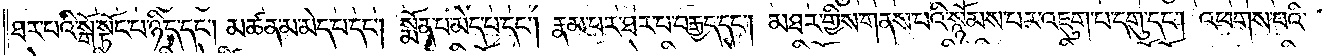ཐར་པའི་སྒོ་སྟོང་པ་ཉིད་དང༌། མཚན་མ་མེད་པ་དང༌། སྨོན་པ་མེད་པ་དང༌། རྣམ་པར་ཐར་པ་བརྒྱད་དང༌། མཐར་གྱིས་གནས་པའི་སྙོམས་པར་འཇུག་པ་དགུ་དང༌། འཕགས་པའི་
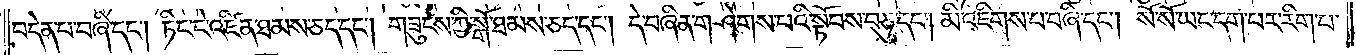བདེན་པ་བཞི་དང༌། ཏིང་ངེ་འཛིན་ཐམས་ཅད་དང༌། གཟུངས་ཀྱི་སྒོ་ཐམས་ཅད་དང༌། དེ་བཞིན་གཤེགས་པའི་སྟོབས་བཅུ་དང༌། མི་འཇིགས་པ་བཞི་དང༌། སོ་སོ་ཡང་དག་པར་རིག་པ་
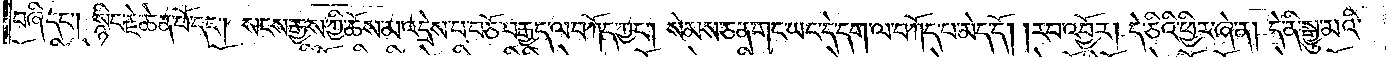བཞི་དང༌། སྙིང་རྗེ་ཆེན་པོ་དང༌། སངས་རྒྱས་ཀྱི་ཆོས་མ་འདྲེས་པ་བཅོ་བརྒྱད་ལ་བཀོད་ཀྱང༌། སེམས་ཅན་གང་ཡང་དེ་དག་ལ་བཀོད་པ་མེད་དོ། །རབ་འབྱོར། དེ་ཅིའི་ཕྱིར་ཞེ་ན། དེ་ནི་སྒྱུ་མའི་
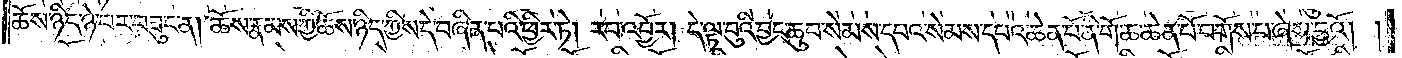ཆོས་ཉིད་ཉེ་བར་བཟུང་ན། ཆོས་རྣམས་ཀྱི་ཆོས་ཉིད་ཀྱིས་དེ་བཞིན་པའི་ཕྱིར་ཏེ། རབ་འབྱོར། དེ་ལྟ་བུའི་བྱང་ཆུབ་སེམས་དཔའ་སེམས་དཔའ་ཆེན་པོ་ནི་གོ་ཆ་ཆེན་པོ་བགོས་པ་ཞེས་བྱའོ། །
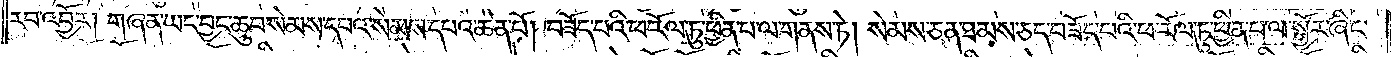རབ་འབྱོར། གཞན་ཡང་བྱང་ཆུབ་སེམས་དཔའ་སེམས་དཔའ་ཆེན་པོ། བཟོད་པའི་ཕ་རོལ་ཏུ་ཕྱིན་པ་ལ་གནས་ཏེ། སེམས་ཅན་ཐམས་ཅད་བཟོད་པའི་ཕ་རོལ་ཏུ་ཕྱིན་པ་ལ་སྦྱོར་ཞིང་
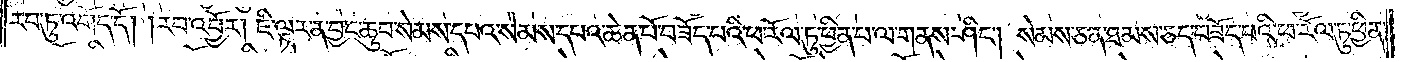རབ་ཏུ་འགོད་དོ། །རབ་འབྱོར། ཇི་ལྟར་ན་བྱང་ཆུབ་སེམས་དཔའ་སེམས་དཔའ་ཆེན་པོ་བཟོད་པའི་ཕ་རོལ་ཏུ་ཕྱིན་པ་ལ་གནས་ཤིང༌། སེམས་ཅན་ཐམས་ཅད་བཟོད་པའི་ཕ་རོལ་ཏུ་ཕྱིན་
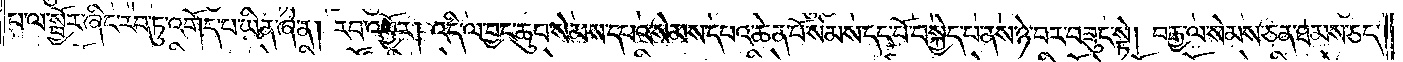པ་ལ་སྦྱོར་ཞིང་རབ་ཏུ་འགོད་པ་ཡིན་ཞེ་ན། རབ་འབྱོར། འདི་ལ་བྱང་ཆུབ་སེམས་དཔའ་སེམས་དཔའ་ཆེན་པོ་སེམས་དང་པོ་བསྐྱེད་པ་ནས་ཉེ་བར་བཟུང་སྟེ། བརྒྱ་ལ་སེམས་ཅན་ཐམས་ཅད་
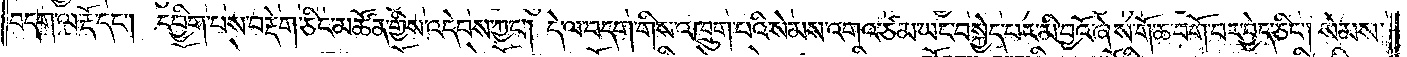བདག་ལ་རྡོ་དང༌། དབྱིག་པས་བརྡེག་ཅིང་མཚོན་གྱིས་འདེབས་ཀྱང༌། དེ་ལ་བདག་གིས་འཁྲུག་པའི་སེམས་འགའ་ཙམ་ཡང་བསྐྱེད་པར་མི་བྱའོ་ཞེས་གོ་ཆ་བགོ་བ་བྱེད་ཅིང༌། སེམས་
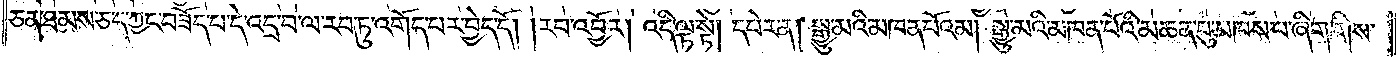ཅན་ཐམས་ཅད་ཀྱང་བཟོད་པ་དེ་འདྲ་བ་ལ་རབ་ཏུ་འགོད་པར་བྱེད་དོ། །རབ་འབྱོར། འདི་ལྟ་སྟེ། དཔེར་ན། སྒྱུ་མའི་མཁན་པོའམ། སྒྱུ་མའི་མཁན་པོའི་མཆན་བུ་མཁས་པ་ཞིག་གིས་
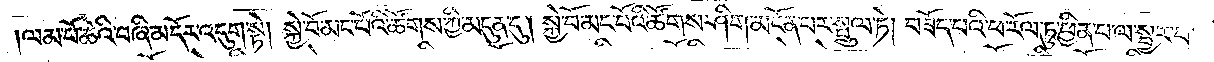ལམ་པོ་ཆེའི་བཞི་འདོར་འདུག་སྟེ། སྐྱེ་བོ་མང་པོའི་ཚོགས་ཀྱི་མདུན་དུ། སྐྱེ་བོ་མང་པོའི་ཚོགས་ཤིག་མངོན་པར་སྤྲུལ་ཏེ། བཟོད་པའི་ཕ་རོལ་ཏུ་ཕྱིན་པ་ལ་སྦྱར་བ་
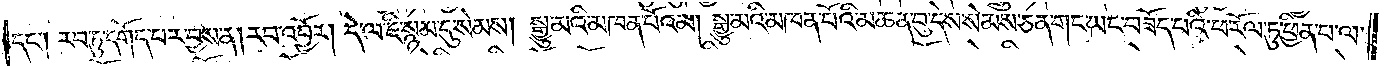དང༌། རབ་ཏུ་དགོད་པ་བྱས་ན། རབ་འབྱོར། དེ་ལ་ཇི་སྙམ་དུ་སེམས། སྒྱུ་མའི་མཁན་པོ་འམ། སྒྱུ་མའི་མཁན་པོའི་མཆན་བུ་དེས་སེམས་ཅན་གང་ཡང་བཟོད་པའི་ཕ་རོལ་ཏུ་ཕྱིན་པ་ལ་
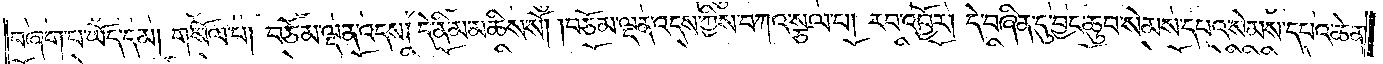བཞག་པ་ཡོད་དམ། གསོལ་བ། བཅོམ་ལྡན་འདས། དེ་ནི་མ་མཆིས་སོ། ། བཅོམ་ལྡན་འདས་ཀྱིས་བཀའ་སྩལ་པ། རབ་འབྱོར། དེ་བཞིན་དུ་བྱང་ཆུབ་སེམས་དཔའ་སེམས་དཔའ་ཆེན་
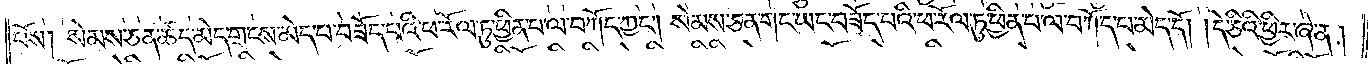པོས། སེམས་ཅན་ཚད་མེད་གྲངས་མེད་པ་བཟོད་པའི་ཕ་རོལ་ཏུ་ཕྱིན་པ་ལ་བཀོད་ཀྱང༌། སེམས་ཅན་གང་ཡང་བཟོད་པའི་ཕ་རོལ་ཏུ་ཕྱིན་པ་ལ་བཀོད་པ་མེད་དོ། །དེ་ཅིའི་ཕྱིར་ཞེ་ན།
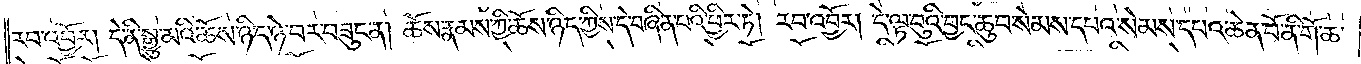རབ་འབྱོར། དེ་ནི་སྒྱུ་མའི་ཆོས་ཉིད་ཉེ་བར་བཟུང་ན། ཆོས་རྣམས་ཀྱི་ཆོས་ཉིད་ཀྱིས་དེ་བཞིན་པའི་ཕྱིར་ཏེ། རབ་འབྱོར། དེ་ལྟ་བུའི་བྱང་ཆུབ་སེམས་དཔའ་སེམས་དཔའ་ཆེན་པོ་ནི་གོ་ཆ་
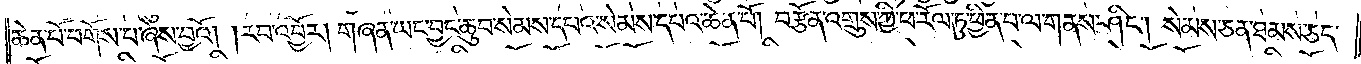ཆེན་པོ་བགོས་པ་ཞེས་བྱའོ། །རབ་འབྱོར། གཞན་ཡང་བྱང་ཆུབ་སེམས་དཔའ་སེམས་དཔའ་ཆེན་པོ། བརྩོན་འགྲུས་ཀྱི་ཕ་རོལ་ཏུ་ཕྱིན་པ་ལ་གནས་ཤིང༌། སེམས་ཅན་ཐམས་ཅད་
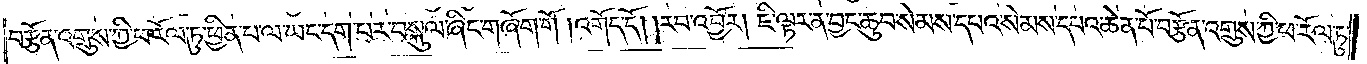བརྩོན་འགྲུས་ཀྱི་ཕ་རོལ་ཏུ་ཕྱིན་པ་ལ་ཡང་དག་པར་བསྐུལ་ཞིང་གཞོག་གོ །འགོད་དོ། །རབ་འབྱོར། ཇི་ལྟར་ན་བྱང་ཆུབ་སེམས་དཔའ་སེམས་དཔའ་ཆེན་པོ་བརྩོན་འགྲུས་ཀྱི་ཕ་རོལ་ཏུ་
